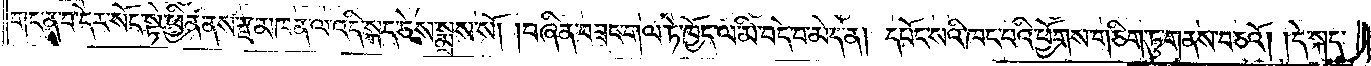གང་ན་བ་དེར་སོང་སྟེ་ཕྱིན་ནས་རྫ་མཁན་ལ་འདི་སྐད་ཅེས་སྨྲས་སོ། །བཞིན་བཟང་གལ་ཏེ་ཁྱོད་ལ་མི་བདེ་བ་མེད་ན། དཔོང་སའི་ཁང་པའི་ཕྱོགས་གཅིག་ཏུ་གནས་བཅའོ། །དེ་སྐད་
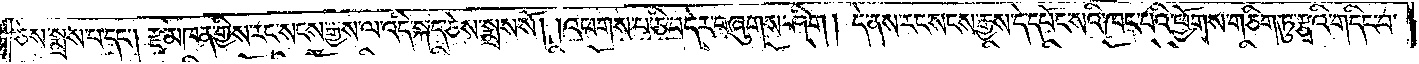ཅེས་སྨྲས་པ་དང༌། རྫ་མཁན་གྱིས་རང་སངས་རྒྱས་ལ་འདི་སྐད་ཅེས་སྨྲས་སོ། །འཕགས་པ་ཅི་བདེར་བཞུགས་ཤིག །དེ་ནས་རང་སངས་རྒྱས་དེ་དཔོང་སའི་ཁང་པའི་ཕྱོགས་གཅིག་ཏུ་རྩྭའི་གདིང་བ་
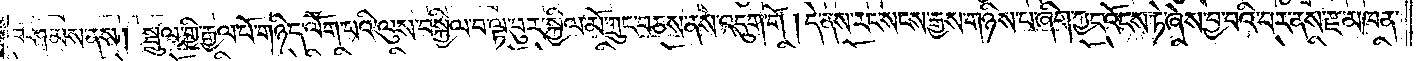བཤམས་ནས། སྤྲུལ་གྱི་རྒྱལ་པོ་གཉིད་ལོག་པའི་ལུས་བསྐྱིལ་བ་ལྟ་བུར་སྐྱིལ་མོ་ཀྲུང་བཅས་ནས་འདུག་གོ །དེ་ནས་རང་སངས་རྒྱས་གཉིས་པ་ཞིག་ཀྱང་འོངས་ཏེ་ཞེས་བྱ་བའི་བར་ནས་རྫ་མཁན་
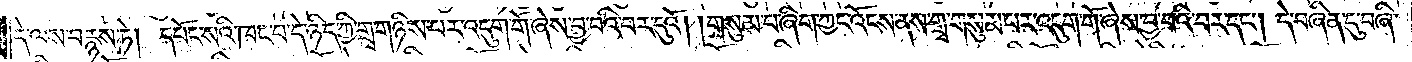དེ་ལས་བརྙས་ཏེ། དཔོང་སའི་ཁང་པ་དེ་ཉིད་ཀྱི་གྲྭ་གཉིས་པར་འདུག་གོ་ཞེས་བྱ་བའི་བར་དུའོ། །གསུམ་པ་ཞིག་ཀྱང་འོངས་ནས་གྲྭ་གསུམ་པར་འདུག་གོ་ཞེས་བྱ་བའི་བར་དང༌། དེ་བཞིན་དུ་བཞི་
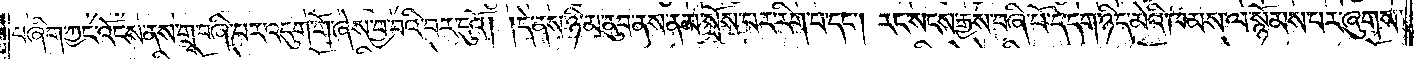པ་ཞིག་ཀྱང་འོངས་ནས་གྲྭ་བཞི་པར་འདུག་གོ་ཞེས་བྱ་བའི་བར་དུའོ། །དེ་ནས་ཉི་མ་ནུབ་ནས་ནམ་སྲོས་པར་རིག་པ་དང༌། རང་སངས་རྒྱས་བཞི་པོ་དེ་དག་ཉིད་མེའི་ཁམས་ལ་སྙོམས་པར་ཞུགས་
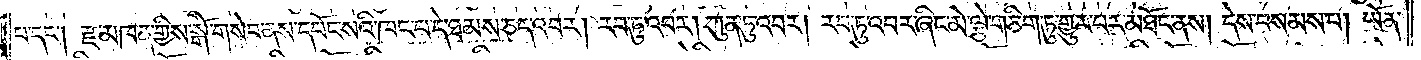པ་དང༌། རྫ་མཁན་གྱིས་སྒོ་གསེབ་ནས་དཔོང་སའི་ཁང་པ་དེ་ཐམས་ཅད་འབར། རབ་ཏུ་འབར། ཀུན་ཏུ་འབར། རབ་ཏུ་འབར་ཞིང་མེ་ལྕེ་གཅིག་ཏུ་གྱུར་པར་མཐོང་ནས། དེས་བསམས་པ། ཡོན་
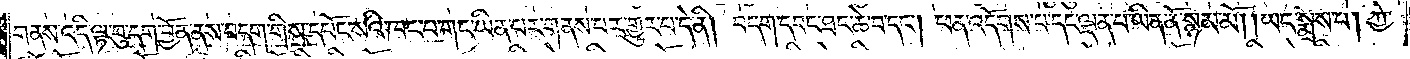གནས་འདི་ལྟ་བུ་དག་བྱོན་ནས་བདག་གིས་དཔོང་སའི་ཁང་པ་གང་ཡིན་པར་གནས་པར་གྱུར་པ་དེ་ནི། བདག་དབང་ཐང་ཆེ་བ་དང༌། ཕན་འདོགས་པ་དང་ལྡན་པ་ཡིན་ནོ་སྙམ་མོ། །ཡང་སྨྲས་པ། ཀྱེ་
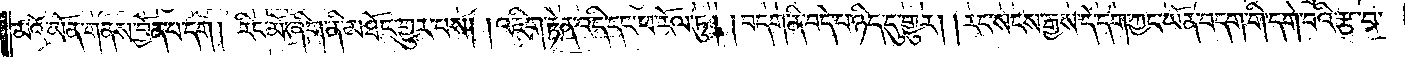མའོ་ཡོན་གནས་བྱོན་པ་དག །རིང་མོ་ཞིག་ནི་མཐོང་གྱུར་པས། །འཇིག་རྟེན་འདི་དང་ཕ་རོལ་ཏུ། །བདག་ནི་བདེ་བ་ཉིད་དུ་གྱུར། །རང་སངས་རྒྱས་དེ་དག་ཀྱང་ཡོན་བདག་གི་དགེ་བའི་རྩ་བ་
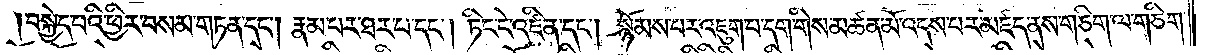།བསྐྱེད་པའི་ཕྱིར་བསམ་གཏན་དང༌། རྣམ་པར་ཐར་པ་དང༌། ཏིང་ངེ་འཛིན་དང༌། སྙོམས་པར་འཇུག་པ་དག་གིས་མཚན་མོ་འདས་པར་མཛད་ནས་གཅིག་ལ་གཅིག་
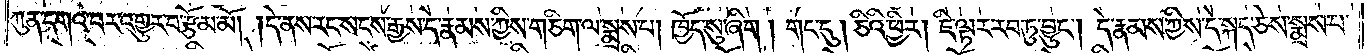ཀུན་དགའ་བར་འགྱུར་བ་རྩོམ་མོ། །དེ་ནས་རང་སངས་རྒྱས་དེ་རྣམས་ཀྱིས་གཅིག་ལ་སྨྲས་པ། ཁྱོད་སུ་ཞིག །གང་དུ། ཅིའི་ཕྱིར། ཇི་ལྟར་རབ་ཏུ་བྱུང༌། དེ་རྣམས་ཀྱིས་དེ་སྐད་ཅེས་སྨྲས་པ་
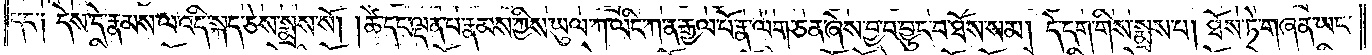དང་༑ དེས་དེ་རྣམས་ལ་འདི་སྐད་ཅེས་སྨྲས་སོ། །ཚེ་དང་ལྡན་པ་རྣམས་ཀྱིས་ཡུལ་ཀ་ལིང་ཀ་ན་རྒྱལ་པོ་རྣ་ལག་ཅན་ཞེས་བྱ་བ་བྱུང་བ་ཐོས་སམ། དེ་དག་གིས་སྨྲས་པ། ཐོས་ཏེ་གཞན་ཡང་
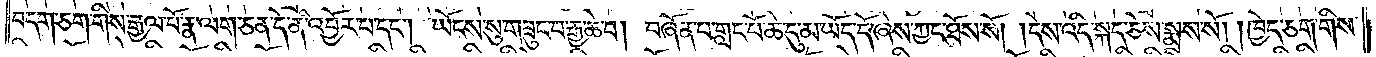བདག་ཅག་གིས་རྒྱལ་པོ་རྣ་ལག་ཅན་དེ་ནི་འབྱོར་པ་དང༌། ཡོངས་སུ་གཟུང་བ་རྒྱ་ཆེ་བ། བཞོན་པ་གླང་པོ་ཆེ་དུ་མ་ཡོད་དོ་ཞེས་ཀྱང་ཐོས་སོ། །དེས་འདི་སྐད་ཅེས་སྨྲས་སོ། །ཁྱེད་ཅག་གིས་
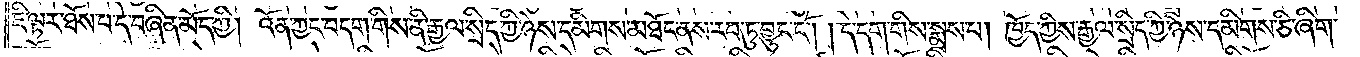ཇི་ལྟར་ཐོས་པ་དེ་བཞིན་མོད་ཀྱི། འོན་ཀྱང་བདག་གིས་ནི་རྒྱལ་སྲིད་ཀྱི་ཉེས་དམིགས་མཐོང་ནས་རབ་ཏུ་བྱུང་ངོ༌། །དེ་དག་གིས་སྨྲས་པ། ཁྱོད་ཀྱིས་རྒྱལ་སྲིད་ཀྱི་ཉེས་དམིགས་ཅི་ཞིག་
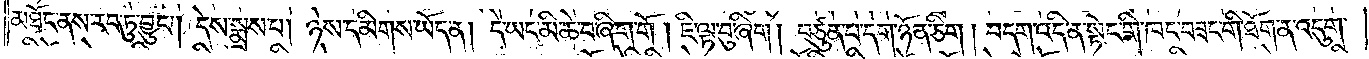མཐོང་ནས་རབ་ཏུ་བྱུང༌། དེས་སྨྲས་པ། ཉེས་དམིགས་ཡོད་ན། དེ་ཡང་མི་ཆེ་བ་ཞིག་གོ །ཇི་ལྟ་བུ་ཞིག །བཙུན་པ་དག་ཉོན་ཅིག །བདག་འདི་ན་སྟེང་གི་ཁང་བཟང་གི་ཐོག་ན་འདུག་
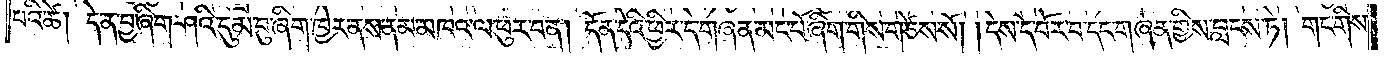པའི་ཚེ། དེ་ན་བྱ་ཞིག་ཤའི་དུམ་བུ་ཞིག་ཁྱེར་ནས་ནམ་མཁའ་ལ་ཕུར་བ་ན། དོན་དེའི་ཕྱིར་དེ་གཞན་མང་པོ་ཞིག་གིས་གཙེས་སོ། །དེས་དེ་བོར་པ་དང་གཞན་གྱིས་བླངས་ཏེ། གང་གིས་
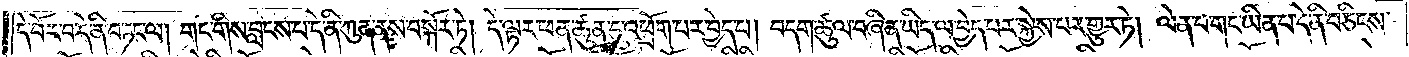དེ་བོར་བ་དེ་ནི་བཏང་ལ། གང་གིས་བླངས་པ་དེ་ནི་ཀུན་ནས་བསྐོར་ཏེ། དེ་ལྟར་ཕན་ཚུན་དུ་འཕྲོག་པར་བྱེད་པ། བདག་ཚུལ་བཞིན་ཡིད་ལ་བྱེད་པར་སྐྱེས་པར་གྱུར་ཏེ། ལེན་པ་གང་ཡིན་པ་དེ་ནི་བཅིངས་
